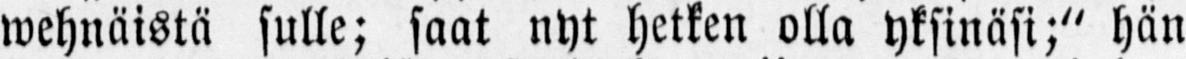wehnäistä sulle; saat nyt hetken olla yksinäsi;" hän
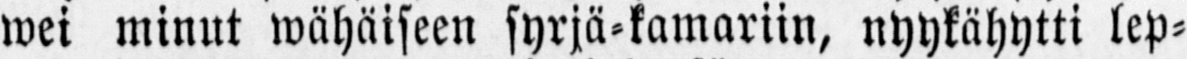wei minut wähäiseen syrjä-kamariin, nyykähytti lep-
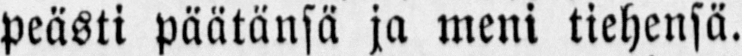peästi päätänsä ja meni tiehensä.
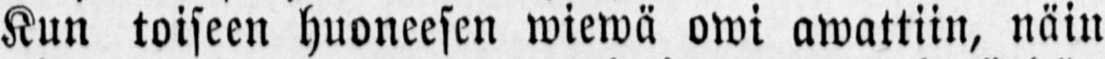Kun toiseen huoneesen wiewä owi awattiin, näin
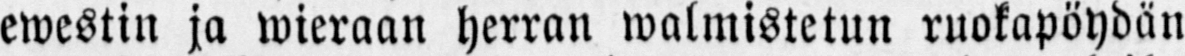ewestin ja wieraan herran walmistetun ruokapöydän
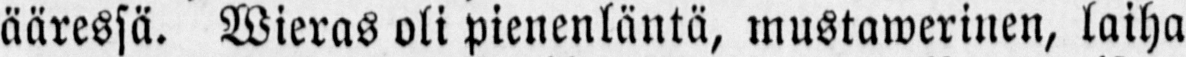ääressä. Wieras oli pienenläntä, mustawerinen, laiha
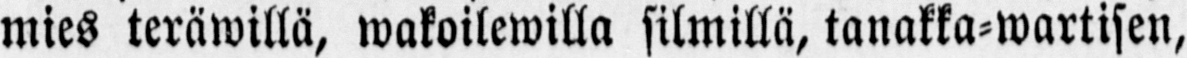mies teräwillä, wakoilewilla silmillä, tanakka-wartisen,
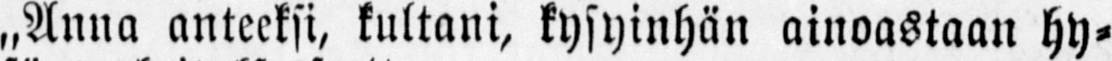„Anna anteeksi, kultani, kysyinhän ainoastaan hy-
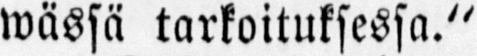wässä tarkoituksessa."
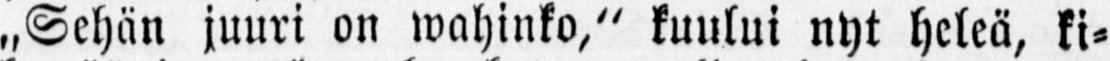„Sehän juuri on wahinko," kuului nyt heleä, ki-
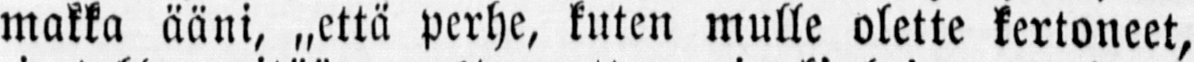makka ääni, „että perhe, kuten mulle olette kertoneet,
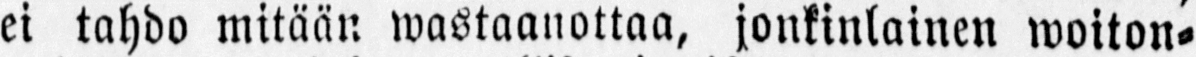ei tahdo mitään wastaanottaa, jonkinlainen woiton-
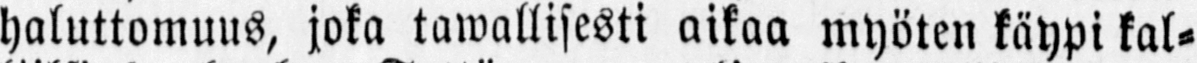haluttomuus, joka tawallisesti aikaa myöten käypi kal-
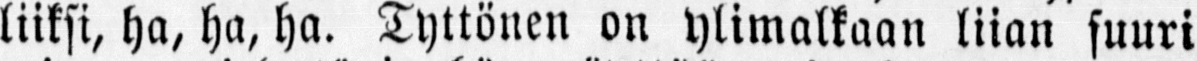liiksi, ha, ha, ha. Tyttönen on ylimalkaan liian suuri
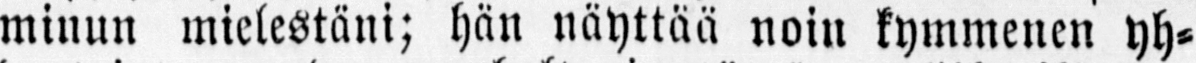minun mielestäni; hän näyttää noin kymmenen yh-
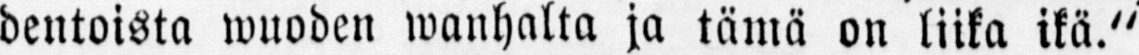dentoista wuoden wanhalta ja tämä on liika ikä."
